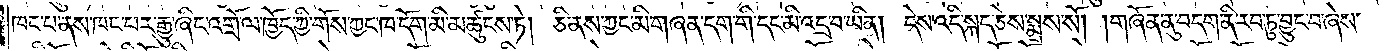ཁང་པ་ནས་ཁང་པར་རྒྱུ་ཞིང་འགྲོ་ལ་ཁྱོད་ཀྱི་གོས་ཀྱང་ཁ་དོག་མི་མཚུངས་ཏེ། ཅི་ནས་ཀྱང་མི་གཞན་དག་གི་དང་མི་འདྲ་བ་ཡིན། དེས་འདི་སྐད་ཅེས་སྨྲས་སོ། །གཞོན་ནུ་བདག་ནི་རབ་ཏུ་བྱུང་བ་ཞེས་
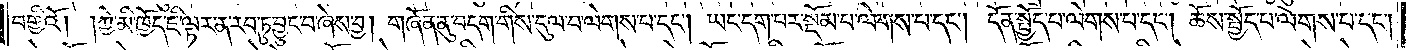བགྱིའོ། །ཀྱེ་མི་ཁྱོད་ཇི་ལྟར་ན་རབ་ཏུ་བྱུང་བ་ཞེས་བྱ། གཞོན་ནུ་བདག་གིས་དུལ་བ་ལེགས་པ་དང༌། ཡང་དག་པར་སྡོམ་པ་ལེགས་པ་དང༌། དོན་སྤྱོད་པ་ལེགས་པ་དང༌། ཆོས་སྤྱོད་པ་ལེགས་པ་དང༌།
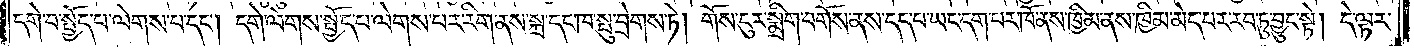དགེ་བ་སྤྱོད་པ་ལེགས་པ་དང༌། དགེ་ལེགས་སྤྱོད་པ་ལེགས་པར་རིག་ནས་སྐྲ་དང་ཁ་སྤུ་བྲེགས་ཏེ། གོས་ངུར་སྨྲིག་བགོས་ནས་དད་པ་ཡང་དག་པར་ཁོ་ནས་ཁྱིམ་ནས་ཁྱིམ་མེད་པར་རབ་ཏུ་བྱུང་སྟེ། དེ་ལྟར་
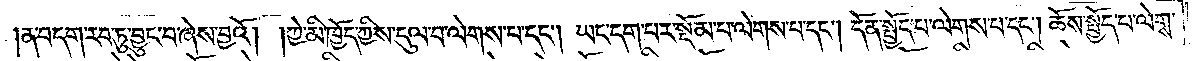ན་བདག་རབ་ཏུ་བྱུང་བ་ཞེས་བྱའོ། །ཀྱེ་མི་ཁྱོད་ཀྱིས་དུལ་པ་ལེགས་པ་དང༌། ཡང་དག་པར་སྡོམ་པ་ལེགས་པ་དང༌། དོན་སྤྱོད་པ་ལེགས་པ་དང༌། ཆོས་སྤྱོད་པ་ལེགས་
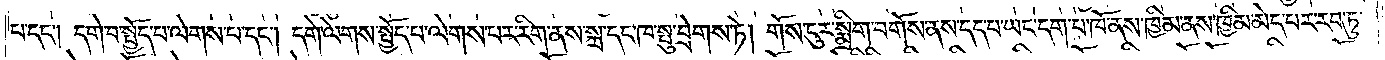པ་དང༌། དགེ་བ་སྤྱོད་པ་ལེགས་པ་དང༌། དགེ་ལེགས་སྤྱོད་པ་ལེགས་པར་རིག་ནས་སྐྲ་དང་ཁ་སྤུ་བྲེགས་ཏེ། གོས་ངུར་སྨྲིག་བགོས་ནས་དད་པ་ཡང་དག་པ་ཁོ་ནས་ཁྱིམ་ནས་ཁྱིམ་མེད་པར་རབ་ཏུ་
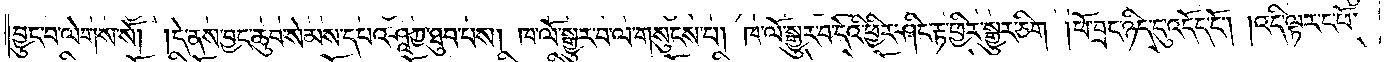བྱུང་བ་ལེགས་སོ། །དེ་ནས་བྱང་ཆུབ་སེམས་དཔའ་ཤཱཀྱ་ཐུབ་པས། ཁ་ལོ་སྒྱུར་བ་ལ་གསུངས་པ། ཁ་ལོ་སྒྱུར་བ་དེའི་ཕྱིར་ཤིང་རྟ་ཕྱིར་སྒྱུར་ཅིག །ཕོ་བྲང་ཉིད་དུ་འདོད་དོ། །འདི་ལྟར་ང་ཕོ་
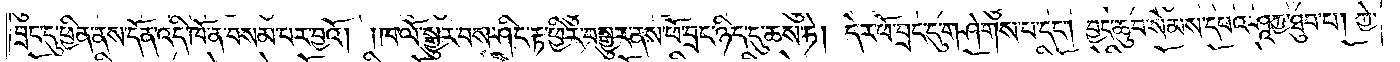བྲང་དུ་ཕྱིན་ནས་དོན་འདི་ཁོ་ན་བསམ་པར་བྱའོ། །ཁ་ལོ་སྒྱུར་བས་ཤིང་རྟ་ཕྱིར་བསྒྱུར་ནས་ཕོ་བྲང་ཉིད་དུ་ཆས་ཏེ། དེར་ཕོ་བྲང་དུ་གཤེགས་པ་དང༌། བྱང་ཆུབ་སེམས་དཔའ་ཤཱཀྱ་ཐུབ་པ། ཀྱེ་
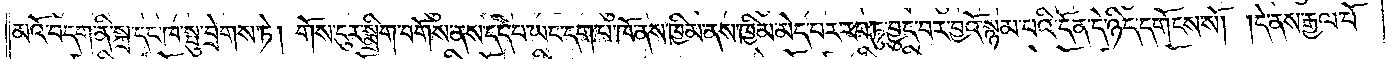མའོ་བདག་ནི་སྐྲ་དང་ཁ་སྤུ་བྲེགས་ཏེ། གོས་ངུར་སྨྲིག་བགོས་ནས་དད་པ་ཡང་དག་པ་ཁོ་ནས་ཁྱིམ་ནས་ཁྱིམ་མེད་པར་རབ་ཏུ་བྱུང་བར་བྱའོ་སྙམ་པའི་དོན་དེ་ཉིད་དགོངས་སོ། །དེ་ནས་རྒྱལ་པོ་
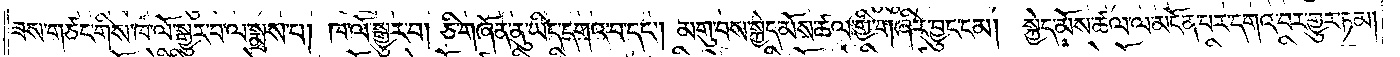ཟས་གཙང་གིས་ཁ་ལོ་སྒྱུར་བ་ལ་སྨྲས་པ། ཁ་ལོ་སྒྱུར་བ། ཅི་གཞོན་ནུ་ཡིད་དགའ་བ་དང༌། མགུ་བས་སྐྱེད་མོས་ཚལ་གྱི་གཞིར་བྱུང་ངམ། སྐྱེད་མོས་ཚལ་ལ་མངོན་པར་དགའ་བར་གྱུར་ཏམ།
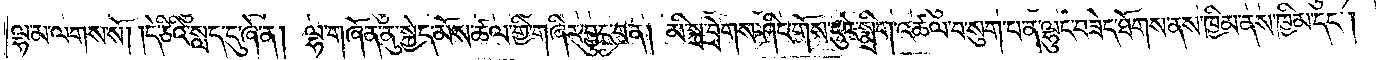ལྷ་མ་ལགས་སོ། །དེ་ཅིའི་སླད་དུ་ཞེ་ན། ལྷ་གཞོན་ནུ་སྐྱེད་མོས་ཚལ་གྱི་གཞིར་བྱུང་བ་ན། མི་སྐྲ་བྲེགས་ཤིང་གོས་ངུར་སྨྲིག་འཚལ་བ་སུག་པ་ན་ལྷུང་བཟེད་ཐོགས་ནས་ཁྱིམ་ནས་ཁྱིམ་དང༌།
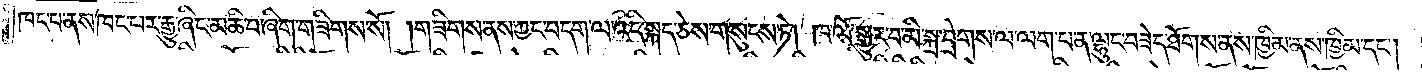ཁང་པ་ནས་ཁང་པར་རྒྱུ་ཞིང་མཆི་བ་ཞིག་གཟིགས་སོ། །གཟིགས་ནས་ཀྱང་བདག་ལ་འདི་སྐད་ཅེས་གསུངས་ཏེ། ཁ་ལོ་སྒྱུར་བ་མི་སྐྲ་བྲེགས་ལ་ལག་པ་ན་ལྷུང་བཟེད་ཐོགས་ནས་ཁྱིམ་ནས་ཁྱིམ་དང༌།
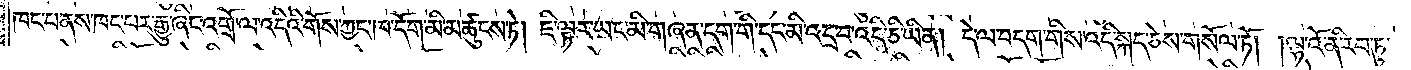ཁང་པ་ནས་ཁང་པར་རྒྱུ་ཞིང་འགྲོ་ལ་འདིའི་གོས་ཀྱང་ཁ་དོག་མི་མཚུངས་ཏེ། ཇི་ལྟར་ཡང་མི་གཞན་དག་གི་དང་མི་འདྲ་བ་འདི་ཅི་ཡིན། དེ་ལ་བདག་གིས་འདི་སྐད་ཅས་གསོལ་ཏོ། །ལྷ་འོ་ནི་རབ་ཏུ་
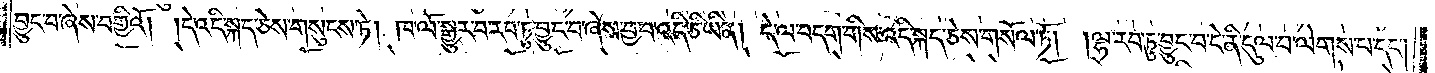བྱུང་བ་ཞེས་བགྱིའོ། །དེ་འདི་སྐད་ཅེས་གསུངས་ཏེ། ཁ་ལོ་སྒྱུར་བ་རབ་ཏུ་བྱུང་བ་ཞེས་བྱ་བ་འདི་ཅི་ཡིན། དེ་ལ་བདག་གིས་འདི་སྐད་ཅེས་གསོལ་ཏོ། །ལྷ་རབ་ཏུ་བྱུང་བ་དེ་ནི་དུལ་བ་ལེགས་པ་དང༌།
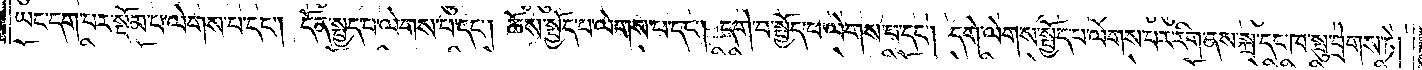ཡང་དག་པར་སྡོམ་པ་ལེགས་པ་དང༌། དོན་སྤྱད་པ་ལེགས་པ་དང༌། ཆོས་སྤྱོད་པ་ལེགས་པ་དང༌། དགེ་བ་སྤྱོད་པ་ལེགས་པ་དང༌། དགེ་ལེགས་སྤྱོད་པ་ལེགས་པར་རིག་ནས་སྐྲ་དང་ཁ་སྤུ་བྲེགས་ཏེ།
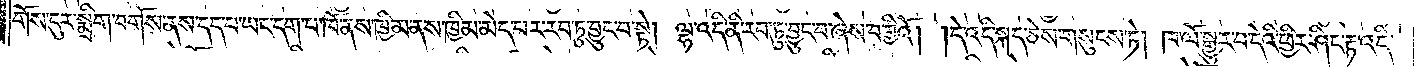གོས་ངུར་སྨྲིག་བགོས་ནས་དད་པ་ཡང་དག་པ་ཁོ་ནས་ཁྱིམ་ནས་ཁྱིམ་མེད་པར་རབ་ཏུ་བྱུང་བ་སྟེ། ལྷ་འདི་ནི་རབ་ཏུ་བྱུང་བ་ཞེས་བགྱིའོ། །དེ་འདི་སྐད་ཅེས་གསུངས་ཏེ། ཁ་ལོ་སྒྱུར་བ་དེའི་ཕྱིར་ཤིང་རྟ་འདི་
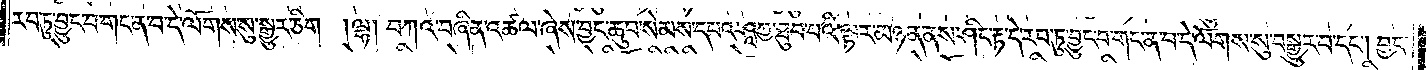རབ་ཏུ་བྱུང་བ་གང་ན་བ་དེ་ལོགས་སུ་སྒྱུར་ཅིག །ལྷ། བཀའ་བཞིན་འཚལ་ཞེས་བྱང་ཆུབ་སེམས་དཔའ་ཤཱཀྱ་ཐུབ་པའི་ལྟར་མཉན་ནས་ཤིང་རྟ་དེ་རབ་ཏུ་བྱུང་བ་གང་ན་བ་དེ་ལོགས་སུ་བསྒྱུར་བ་དང༌། བྱང་
